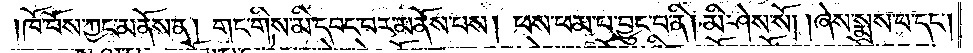ཁོ་བོས་ཀྱང་མནོས་ན། གང་གིས་མི་དབང་བར་མནོས་པས། ཕས་ཕམ་པ་བྱུང་བ་ནི། མི་ཤེས་སོ། །ཞེས་སྨྲས་པ་དང༌།
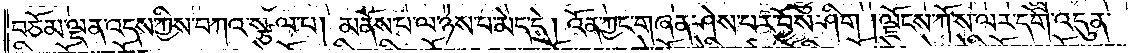བཅོམ་ལྡན་འདས་ཀྱིས་བཀའ་སྩལ་པ། མནོས་པ་ལ་ཉེས་པ་མེད་དེ། འོན་ཀྱང་གཞན་ཤེས་པར་བྱོས་ཤིག །ལྗོངས་ཀོ་ས་ལར་དགེ་འདུན་
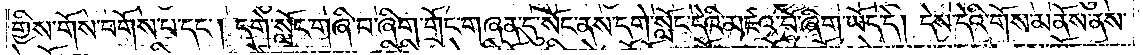གྱིས་གོས་བགོས་པ་དང༌། དགེ་སློང་གཞི་བ་ཞིག་གྲོང་གཞན་དུ་སོང་ནས་དགེ་སློང་དེའི་མཛའ་བོ་ཞིག་ཡོད་དེ། དེས་དེའི་གོས་མནོས་ནས་
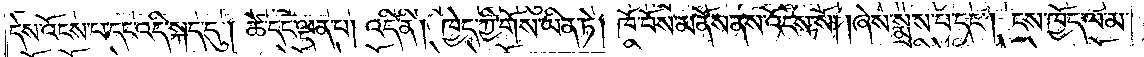དེས་འོངས་པ་དང་འདི་སྐད་དུ། ཚེ་དང་ལྡན་པ། འདི་ནི། ཁྱེད་ཀྱི་གོས་ཡིན་ཏེ། ཁོ་བོས་མནོས་ནས་འོངས་སོ། །ཞེས་སྨྲས་པ་དང༌། ངས་ཁྱོད་ལ་མ་
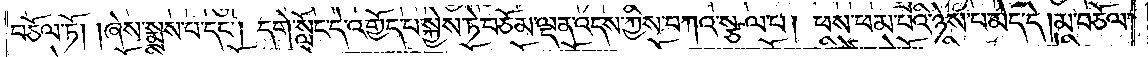བཅོལ་ཏོ། །ཞེས་སྨྲས་པ་དང༌། དགེ་སློང་དེ་འགྱོད་པ་སྐྱེས་ཏེ་བཅོམ་ལྡན་འདས་ཀྱིས་བཀའ་སྩལ་པ། ཕས་ཕམ་པའི་ཉེས་པ་མེད་དེ། མ་བཅོལ་
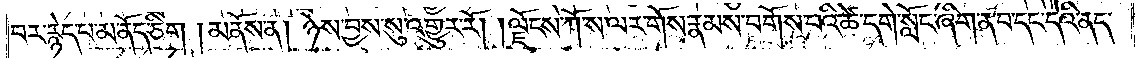བར་རྙེད་པ་མ་ནོད་ཅིག །མནོས་ན། ཉེས་བྱས་སུ་འགྱུར་རོ། །ལྗོངས་ཀོ་ས་ལར་གོས་རྣམས་བགོས་པའི་ཚེ་དགེ་སློང་ཞིག་ན་བ་དང་དེའི་ནད་
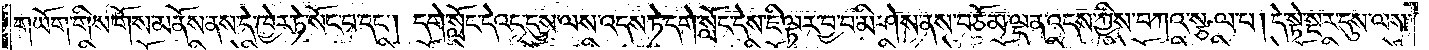གཡོག་གིས་གོས་མནོས་ནས་དེ་ཁྱེར་ཏེ་སོང་བ་དང༌། དགེ་སློང་དེའང་དུས་ལས་འདས་ཏེ་དགེ་སློང་དེས་ཇི་ལྟར་བྱ་བ་མི་ཤེས་ནས་བཅོམ་ལྡན་འདས་ཀྱིས་བཀའ་སྩལ་པ། དེ་སྟེ་སྔར་དུས་ལས་
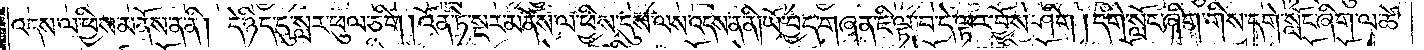འདས་ལ་ཕྱིས་མནོས་ན་ནི། དེ་ཉིད་དུ་སླར་ཕུལ་ཅིག །འོན་ཏེ་སྔར་མནོས་ལ་ཕྱིས་དུས་ལས་འདས་ན་ནི། ཡོ་བྱད་གཞན་ཇི་ལྟ་བ་དེ་ལྟར་བྱོས་ཤིག །དགེ་སློང་ཞིག་གིས་དགེ་སློང་ཞིག་ལ་ཚེ་
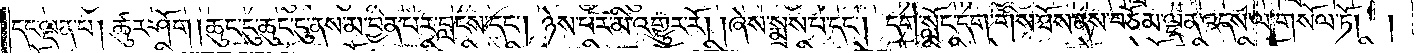དང་ལྡན་པ། ཚུར་ཤོག །ཆུང་ངུ་ཆུང་ངུ་ནས་མ་བྱིན་པར་བླངས་དང༌། ཉེས་པར་མི་འགྱུར་རོ། །ཞེས་སྨྲས་པ་དང༌། དགེ་སློང་དག་གིས་ཐོས་ནས་བཅོམ་ལྡན་འདས་ལ་གསོལ་ཏོ། །
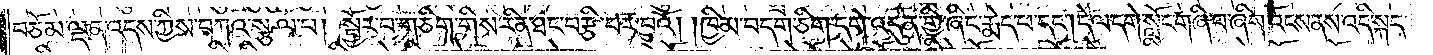བཅོམ་ལྡན་འདས་ཀྱིས་བཀའ་སྩལ་པ། སྦྱོར་བ་གཅིག་གིས་རིན་ཐང་བརྩི་བར་བྱའོ། །ཁྱིམ་བདག་ཅིག་དགེ་འདུན་གྱི་ཞིང་རྨེད་པ་དང༌། དེ་ལ་དགེ་སློང་གཞི་བ་ཞིག་འོངས་ནས་འདི་སྐད་
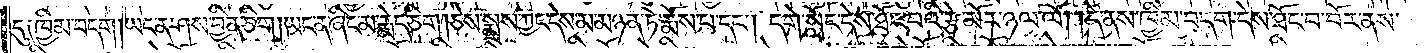དུ༑ ཁྱིམ་བདག། ཡང་ན་ཤས་བྱིན་ཅིག །ཡང་ན་ཞིང་མ་རྨེད་ཅིག །ཅེས་སྨྲས་ཀྱང་དེས་མ་མཉན་ཏེ་རྨོས་པ་དང༌། དགེ་སློང་དེས་ཐོང་བའི་རྩེ་མོར་ཉལ་ལོ། །དེ་ནས་ཁྱིམ་བདག་དེས་ཐོང་བ་བོར་ནས་
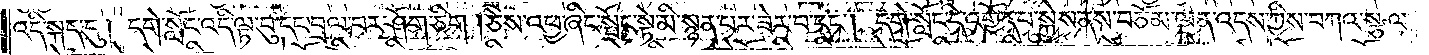འདི་སྐད་དུ། དགེ་སློང་འདི་ལྟ་བུ་དང་བྲལ་བར་ཤོག་ཅིག །ཅེས་འཕྱ་ཞིང་སྤོང་སྟེ་མི་སྙན་པར་ཟེར་བ་དང༌། དགེ་སློང་དེ་འགྱོད་པ་སྐྱེས་ནས་བཅོམ་ལྡན་འདས་ཀྱིས་བཀའ་སྩལ་
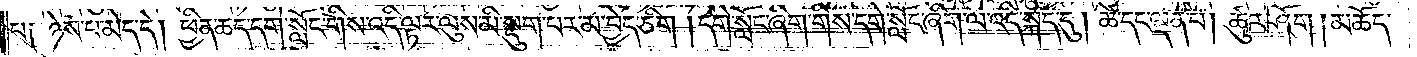པ༑ ཉེས་པ་མེད་དེ། ཕྱིན་ཆད་དགེ་སློང་གིས་འདི་ལྟར་ལུས་མི་སྡུག་པར་མ་བྱེད་ཅིག །དགེ་སློང་ཞིག་གིས་དགེ་སློང་ཞིག་ལ་འདི་སྐད་དུ། ཚེ་དང་ལྡན་པ། ཚུར་ཤོག །མཆོད་
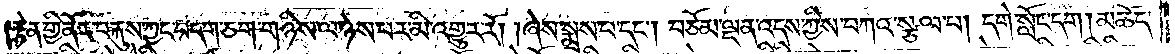།རྟེན་གྱི་ནོར་བརྐུས་ཀྱང་བདག་ཅག་གཉིས་ལ་ཉེས་པར་མི་འགྱུར་རོ། །ཞེས་སྨྲས་པ་དང༌། བཅོམ་ལྡན་འདས་ཀྱིས་བཀའ་སྩལ་པ། དགེ་སློང་དག །མཆོད་
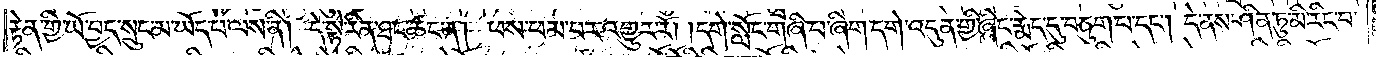རྟེན་གྱི་ཡོ་བྱད་སྲུང་མ་ཡོད་པ་ལས་ནི། དེ་སྟེ་རིན་ཐང་ཚང་ན། ཕས་ཕམ་པར་འགྱུར་རོ། །དགེ་སློང་གཞི་པ་ཞིག་དགེ་འདུན་གྱི་ཞིང་རྨེད་དུ་བཅུག་པ་དང༌། དེ་ནས་ཤིན་ཏུ་མི་རིང་བ་
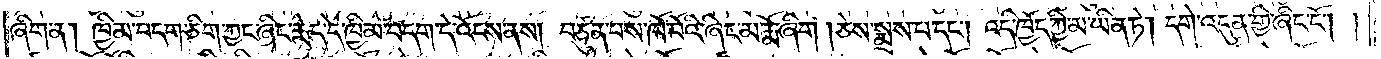ཞིག་ན། ཁྱིམ་བདག་ཅིག་ཀྱང་ཞིང་རྨེད་དེ་ཁྱིམ་བདག་དེ་འོངས་ནས། བཙུན་པས་ཁོ་བོའི་ཞིང་མ་རྨོ་ཞིག །ཅེས་སྨྲས་པ་དང༌། འདི་ཁྱོད་ཀྱི་མ་ཡིན་ཏེ། དགེ་འདུན་གྱི་ཞིང་ངོ༌། །
